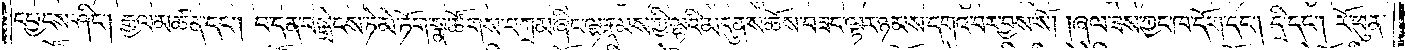དཔྱངས་ཤིང༌། རྒྱལ་མཚན་དང༌། བ་དན་བསྒྲེངས་ཏེ་མེ་ཏོག་སྣ་ཚོགས་བཀྲམ་ཞིང་ལྷ་རྣམས་ཀྱི་ལྷའི་མདུན་ས་ཆོས་བཟང་ལྟར་ཉམས་དགའ་བར་བྱས་སོ། །ཞལ་ཟས་ཀྱང་ཁ་དོག་དང༌། དྲི་དང༌། རོ་ཕུན་
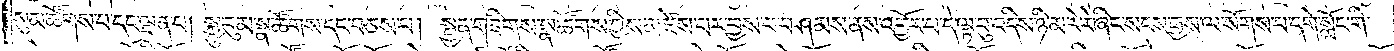སུམ་ཚོགས་པ་དང་ལྡན་པ། སྐྱུ་རུམ་སྣ་ཚོགས་དང་བཅས་པ། སྤྱན་གཟིགས་སྣ་ཚོགས་ཀྱིས་མཛེས་པར་བྱས་པ་བཤམས་ནས་འབྱོར་པ་དེ་ལྟ་བུ་འདིས་ཉི་མ་རེ་རེ་ཞིང་སངས་རྒྱས་ལ་སོགས་པ་དགེ་སློང་གི་
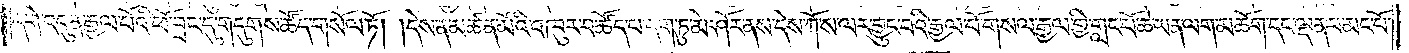དགེ་འདུན་རྒྱལ་པོའི་ཕོ་བྲང་དུ་གདུགས་ཚོད་གསོལ་ཏོ། །དེས་ན་མཚན་མོའི་འཁུར་བ་ཚོད་པ་དག་ཏུ་མེ་ཤོར་ནས་དེས་ཀོ་ས་ལར་བྱུང་བའི་རྒྱལ་པོ་གསལ་རྒྱལ་གྱི་གླང་པོ་ཆེ་ཡན་ལག་མཆོག་དང་ལྡན་པ་མང་པོ་
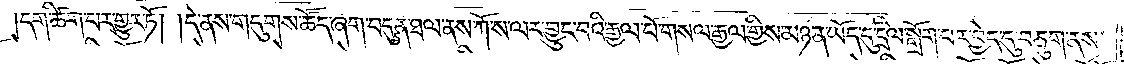དག་ཚིག་པར་གྱུར་ཏོ། །དེ་ནས་གདུགས་ཚོད་ཞག་བདུན་ཐལ་ནས་ཀོ་ས་ལར་བྱུང་བའི་རྒྱལ་པོ་གསལ་རྒྱལ་གྱིས་མཉན་ཡོད་དུ་དྲིལ་སྒྲོག་པར་བྱེད་དུ་བཅུག་ནས་
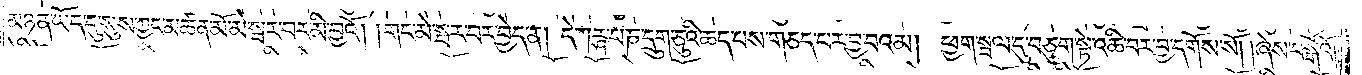མཉན་ཡོད་དུ་སུས་ཀྱང་མཚན་མོ་མེ་སྦར་བར་མི་བྱའོ། །གང་མེ་སྦར་བར་བྱེད་ན། དེ་ཀཪྴ་པ་ཎ་དྲུག་ཅུའི་ཆད་པས་གཅད་པར་བྱ་བའམ། ཕྱག་སྦལ་དུ་བཅུག་སྟེ་འཆི་བར་བྱ་དགོས་སོ། །ཞེས་བསྒོའོ༎
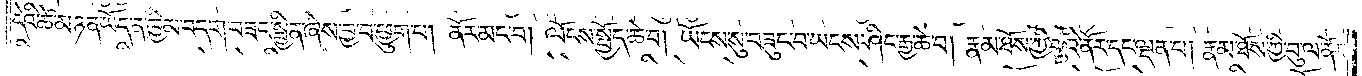དེའི་ཚེ་མཉན་ཡོད་ན་ཁྱིམ་བདག་བཟང་སྦྱིན་ཞེས་བྱ་བ་ཕྱུག་པ། ནོར་མང་བ། ལོངས་སྤྱོད་ཆེ་བ། ཡོངས་སུ་བཟུང་བ་ཡངས་ཤིང་རྒྱ་ཆེ་བ། རྣམ་ཐོས་ཀྱི་བུའི་ནོར་དང་ལྡན་པ། རྣམ་ཐོས་ཀྱི་བུ་ལ་ནོར་
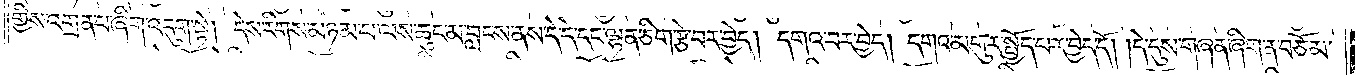གྱིས་འགྲན་པ་ཞིག་འདུག་སྟེ། དེས་རིགས་མཉམ་པ་ལས་ཆུང་མ་བླངས་ནས་དེ་དེ་དང་ལྷན་ཅིག་རྩེ་བར་བྱེད། དགའ་བར་བྱེད། དགའ་མགུར་སྤྱོད་པར་བྱེད་དོ། །དེ་དུས་གཞན་ཞིག་ན་བཅོམ་
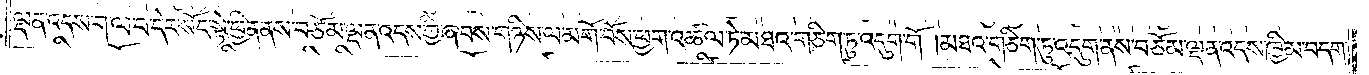ལྡན་འདས་ག་ལ་བ་དེར་སོང་སྟེ་ཕྱིན་ནས་བཅོམ་ལྡན་འདས་ཀྱི་ཞབས་གཉིས་ལ་མགོ་བོས་ཕྱག་འཚལ་ཏེ་མཐའ་གཅིག་ཏུ་འདུག་གོ །མཐའ་གཅིག་ཏུ་འདུག་ནས་བཅོམ་ལྡན་འདས་ཁྱིམ་བདག་
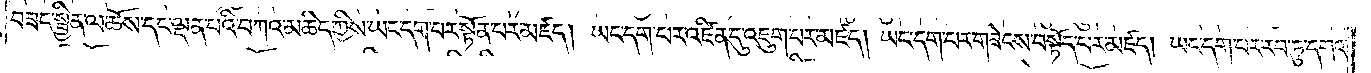བཟང་སྦྱིན་ལ་ཆོས་དང་ལྡན་པའི་བཀའ་མཆིད་ཀྱིས་ཡང་དག་པར་སྟོན་པར་མཛད། ཡང་དག་པར་འཛིན་དུ་འཇུག་པར་མཛད། ཡང་དག་པར་གཟེངས་བསྟོད་པར་མཛད། ཡང་དག་པར་རབ་ཏུ་དགའ་
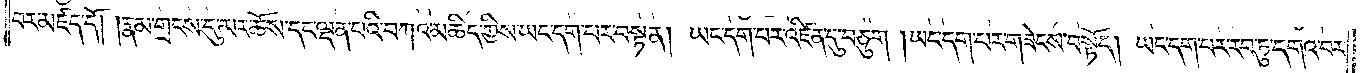བར་མཛད་དོ། །རྣམ་གྲངས་དུ་མར་ཆོས་དང་ལྡན་པའི་བཀའ་མཆིད་ཀྱིས་ཡང་དག་པར་བསྟན། ཡང་དག་པར་འཛིན་དུ་བཅུག །ཡང་དག་པར་གཟེངས་བསྟོད། ཡང་དག་པར་རབ་ཏུ་དགའ་བར་
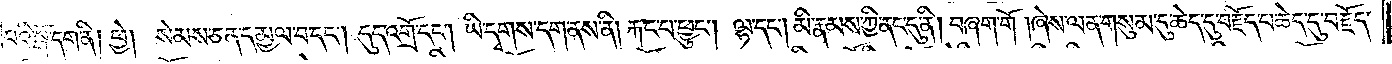པའི་སྒོ་དག་ནི། ཕྱེ། སེམས་ཅན་དམྱལ་བ་དང༌། དུད་འགྲོ་དང༌། ཡི་དྭགས་དག་ནས་ནི། རྐང་པ་ཕྱུང༌། ལྷ་དང༌། མི་རྣམས་ཀྱི་ནང་དུ་ནི། བཞག་གོ །ཞེས་ལན་གསུམ་དུ་ཆེད་དུ་བརྗོད་པ་ཆེད་དུ་བརྗོད་
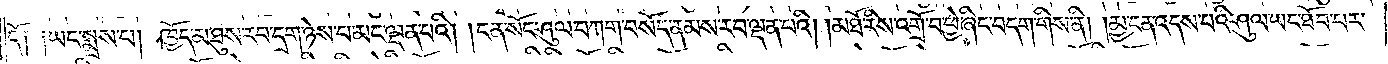དོ། །ཡང་སྨྲས་པ། ཁྱོད་མཐུས་རབ་དྲག་ཉེས་པ་མང་ལྡན་པའི། །ངན་སོང་ཤུལ་བཀག་བསོད་ནམས་རབ་ལྡན་པའི། །མཐོ་རིས་འགྲོ་བ་ཕྱེ་ཞིང་བདག་གིས་ནི། །མྱ་ངན་འདས་པའི་ཤུལ་ཡང་ཐོབ་པར་
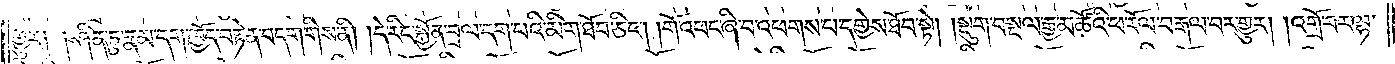གྱུར། །ཤིན་ཏུ་རྣམ་དག་ཁྱོད་བརྟེན་བདག་གིས་ནི། །དེ་རིང་སྐྱོན་བྲལ་དག་པའི་མིག་ཐོབ་ཅིང༌། །གོ་འཕང་ཞི་བ་འཕགས་པ་དགྱེས་ཐོབ་སྟེ། །སྡུག་བསྔལ་རྒྱ་མཚོའི་ཕ་རོལ་བརྒལ་བར་གྱུར། །འགྲོ་བར་ལྷ་
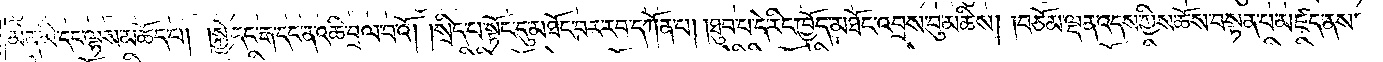མིན་མི་དང་ལྷས་མཆོད་པ། །སྐྱེ་དང་རྒ་དང་ན་འཆི་བྲལ་བའོ། །སྲིད་པ་སྟོང་དུ་མཐོང་བར་རབ་དཀོན་པ། །ཐུབ་པ་དེ་རིང་ཁྱོད་མཐོང་འབྲས་བུ་མཆིས། །བཅོམ་ལྡན་འདས་ཀྱིས་ཆོས་བསྟན་པ་མཛད་ནས་
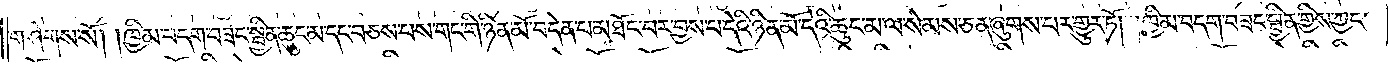གཤེགས་སོ། །ཁྱིམ་བདག་བཟང་སྦྱིན་ཆུང་མ་དང་བཅས་པས་གང་གི་ཉིན་མོ་བདེན་པ་མཐོང་བར་བྱས་པ་དེའི་ཉིན་མོ་དེའི་ཆུང་མ་ལ་སེམས་ཅན་ཞུགས་པར་གྱུར་ཏོ། །ཁྱིམ་བདག་བཟང་སྦྱིན་གྱིས་ཀྱང་
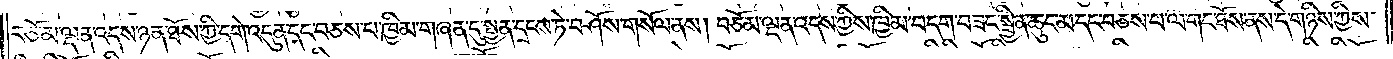བཅོམ་ལྡན་འདས་ཉན་ཐོས་ཀྱི་དགེ་འདུན་དང་བཅས་པ་ཁྱིམ་གཞན་དུ་སྤྱན་དྲངས་ཏེ་བཤོས་གསོལ་ནས། བཅོམ་ལྡན་འདས་ཀྱིས་ཁྱིམ་བདག་བཟང་སྦྱིན་ཆུང་མ་དང་བཅས་པ་ལ་གང་ཐོས་ནས་དེ་གཉིས་ཀྱིས་
